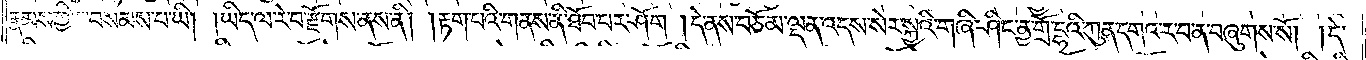རྣམས་ཀྱི་བསམས་པ་ཡི། །ཡིད་ལ་རེ་བ་རྫོགས་ནས་ནི། །རྟག་པའི་གནས་ནི་ཐོབ་པར་ཤོག །དེ་ནས་བཅོམ་ལྡན་འདས་སེར་སྐྱའི་གཞི་ཤིང་ནྱ་གྲོ་དྷའི་ཀུན་དགའ་ར་བ་ན་བཞུགས་སོ། །དེ་
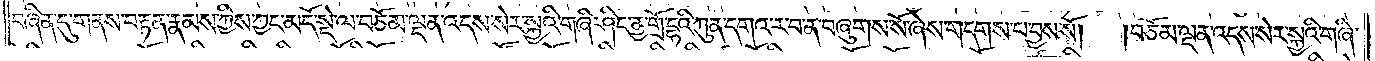བཞིན་དུ་གནས་བརྟན་རྣམས་ཀྱིས་ཀྱང་མདོ་སྡེ་ལ་བཅོམ་ལྡན་འདས་སེར་སྐྱའི་གཞི་ཤིང་ནྱ་གྲོ་དྷའི་ཀུན་དགའ་ར་བ་ན་བཞུགས་སོ་ཞེས་གདགས་པ་བྱས་སོ།  །བཅོམ་ལྡན་འདས་སེར་སྐྱའི་གཞི་
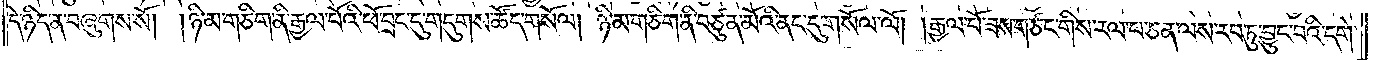དེ་ཉིད་ན་བཞུགས་སོ། །ཉི་མ་གཅིག་ནི་རྒྱལ་པོའི་ཕོ་བྲང་དུ་གདུགས་ཚོད་གསོལ། ཉི་མ་གཅིག་ནི་བཙུན་མོའི་ནང་དུ་གསོལ་ལོ། །རྒྱལ་པོ་ཟས་གཙང་གིས་རལ་པ་ཅན་ལས་རབ་ཏུ་བྱུང་བའི་དགེ་
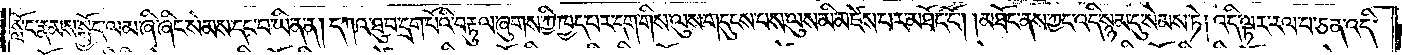སློང་རྣམས་སྤྱོད་ལམ་ཞི་ཞིང་སེམས་དང་བ་ཡིན་ན། དཀའ་ཐུབ་དྲག་པོའི་བརྟུལ་ཞུགས་ཀྱི་ཁྱད་པར་དག་གིས་ལུས་གདུངས་པས་ལུས་མི་མཛེས་པར་མཐོང་ངོ༌། །མཐོང་ནས་ཀྱང་འདི་སྙམ་དུ་སེམས་ཏེ། འདི་ལྟར་རལ་པ་ཅན་འདི་
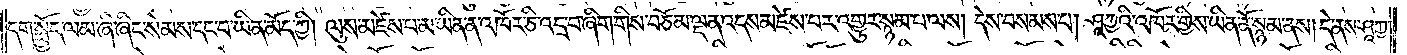དག་སྤྱོད་ལམ་ཞི་ཞིང་སེམས་དང་བ་ཡིན་མོད་ཀྱི། ལུས་མཛེས་པ་མ་ཡིན་ན་འཁོར་ཅི་འདྲ་བ་ཞིག་གིས་བཅོམ་ལྡན་འདས་མཛེས་པར་འགྱུར་སྙམ་པ་ལས། དེས་བསམས་པ། ཤཱཀྱའི་འཁོར་གྱིས་ཡིན་ནོ་སྙམ་ནས། དེ་ནས་ཤཱཀྱ་
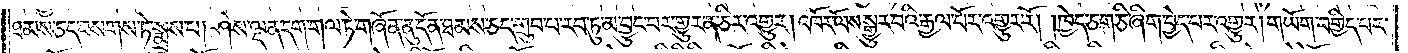ཐམས་ཅད་བསགས་ཏེ་སྨྲས་པ། ཤེས་ལྡན་དག་གལ་ཏེ་གཞོན་ནུ་དོན་ཐམས་ཅད་གྲུབ་པ་རབ་ཏུ་མ་བྱུང་བར་གྱུར་ན་ཅིར་འགྱུར། འཁོར་ལོས་སྒྱུར་བའི་རྒྱལ་པོར་འགྱུར་རོ། །ཁྱེད་ཅག་ཅི་ཞིག་བྱེད་པར་འགྱུར། གཡོག་བགྱིད་པར་
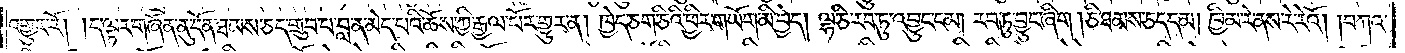འགྱུར་རོ། །ད་ལྟར་གཞོན་ནུ་དོན་ཐམས་ཅད་གྲུབ་པ་བླ་ན་མེད་པའི་ཆོས་ཀྱི་རྒྱལ་པོར་གྱུར་ན། ཁྱེད་ཅག་ཅིའི་ཕྱིར་གཡོག་མི་བྱེད། ལྷ་ཅི་རབ་ཏུ་འབྱུང་ངམ། རབ་ཏུ་བྱུང་ཞིག །ཅི་ཐམས་ཅད་དམ། ཁྱིམ་རེ་ནས་རེ་རེའོ། །བཀའ་
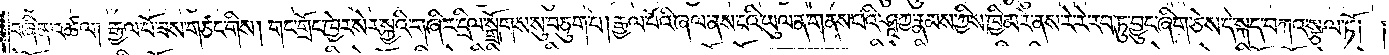བཞིན་འཚལ། རྒྱལ་པོ་ཟས་གཙང་གིས། གང་གྲོང་ཁྱེར་སེར་སྐྱའི་གཞིར་དྲིལ་སྒྲོགས་སུ་བཅུག་པ། རྒྱལ་པོའི་ཞལ་ནས་ངའི་ཡུལ་ན་གནས་པའི་ཤཱཀྱ་རྣམས་ཀྱིས་ཁྱིམ་རེ་ནས་རེ་རེ་རབ་ཏུ་བྱུང་ཞིག་ཅེས་དེ་སྐད་བཀའ་སྩལ་ཏོ། །
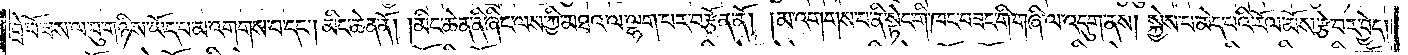བྲེ་པོ་ཟས་ལ་བུ་གཉིས་ཡོད་པ་མ་འགགས་པ་དང༌། མིང་ཆེན་ནོ། །མིང་ཆེན་ནི་ཞིང་ལས་ཀྱི་མཐའ་ལ་ལྷག་པར་བརྩོན་ནོ། །མ་འགགས་པ་ནི་སྟེང་གི་ཁང་བཟང་གི་གཞི་ལ་འདུག་ནས། སྐྱེས་པ་མེད་པའི་རོལ་མོས་རྩེ་བར་བྱེད།
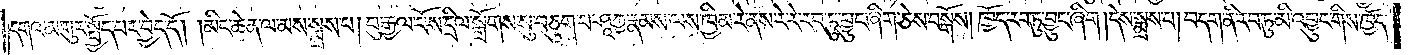དགའ་མགུར་སྤྱོད་པར་བྱེད་དོ། །མིང་ཆེན་ལ་མས་སྨྲས་པ། བུ་རྒྱལ་པོས་དྲིལ་སྒྲོགས་སུ་བཅུག་པ་ཤཱཀྱ་རྣམས་ལས་ཁྱིམ་རེ་ནས་རེ་རེ་རབ་ཏུ་བྱུང་ཞིག་ཅེས་བསྒོས། ཁྱོད་རང་ཏུ་བྱུང་ཞིག །དེས་སྨྲས་པ། བདག་ནི་རབ་ཏུ་མི་འབྱུང་གིས་ཁྱོད་
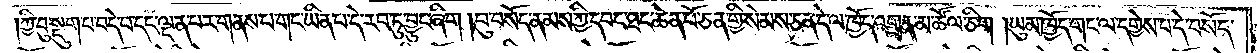ཀྱི་བུ་སྡུག་པ་བདེ་བ་དང་ལྡན་པར་གནས་པ་གང་ཡིན་པ་དེ་རབ་ཏུ་བྱུང་ཞིག །བུ་བསོད་ནམས་ཀྱི་དབང་ཐང་ཆེན་པོ་ཅན་གྱི་སེམས་ཅན་དེ་ལ་ཁྱོད་འགྲན་མ་ཚོལ་ཅིག །ཡུམ་ཁྱོད་གང་ལ་དགྱེས་པ་དེ་བསོད་
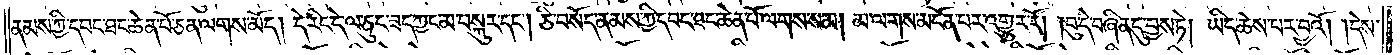ནམས་ཀྱི་དབང་ཐང་ཆེན་པོ་ཅན་ལགས་མོད། དེ་རིང་དེ་ལ་ཅུང་ཟད་ཀྱང་མ་བསྐུར་དང༌། ཅི་བསོད་ནམས་ཀྱི་དབང་ཐང་ཆེན་པོ་ལགས་སམ། མ་ལགས་མངོན་པར་འགྱུར་རོ། །བུ་དེ་བཞིན་དུ་བྱས་ཏེ། ཡིད་ཆེས་པར་བྱའོ། །དེས་
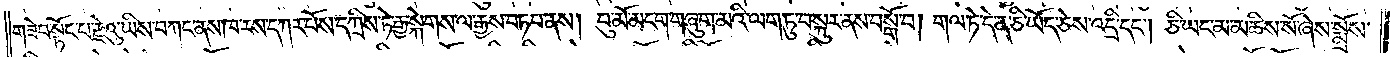གཟེབ་སྟོང་པ་རྫེའུ་ཡིས་བཀང་ནས་ཁ་རས་དཀར་པོས་དཀྲིས་ཏེ་རྒྱ་སྐེགས་ལ་རྒྱས་བཏབ་ནས། བུ་མོ་མངག་གཞུག་མའི་ལག་ཏུ་བསྐུར་ནས་བསྒོ་བ། གལ་ཏེ་དེ་ན་ཅི་ཡོད་ཅེས་འདྲི་དང༌། ཅི་ཡང་མ་མཆིས་སོ་ཞེས་སྨྲོས་
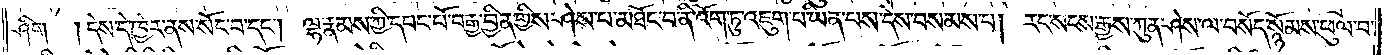ཤིག །དེས་དེ་ཁྱེར་ནས་སོང་བ་དང༌། ལྷ་རྣམས་ཀྱི་དབང་པོ་བརྒྱ་བྱིན་གྱིས་ཤེས་པ་མཐོང་བ་ནི་འོག་ཏུ་འཇུག་པ་ཡིན་པས་དེས་བསམས་པ། རང་སངས་རྒྱས་ཀུན་ཤེས་ལ་བསོད་སྙོམས་ཕུལ་བ་
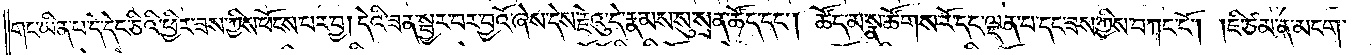གང་ཡིན་པ་དེ་དེང་ཅིའི་ཕྱིར་ཟས་ཀྱིས་ཕོངས་པར་བྱ། དེའི་ཟན་སྦྱར་བར་བྱའོ་ཞེས་དེས་རྗེའུ་དེ་རྣམས་སུ་སྲན་ཚོད་དང༌། ཚོད་མ་སྣ་ཚོགས་རོ་དང་ལྡན་པ་དང་ཟས་ཀྱིས་བཀང་ངོ༌། །ཇི་ཙམ་ན་མངག་
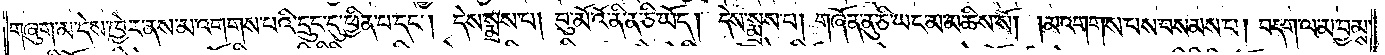གཞུག་མ་དེས་ཁྱེར་ནས་མ་འགགས་པའི་དྲུང་དུ་ཕྱིན་པ་དང༌། དེས་སྨྲས་པ། བུ་མོ་འོ་ནི་ན་ཅི་ཡོད། དེས་སྨྲས་པ། གཞོན་ནུ་ཅི་ཡང་མ་མཆིས་སོ། །མ་འགགས་པས་བསམས་པ། བདག་ལ་མ་བྱམས་
